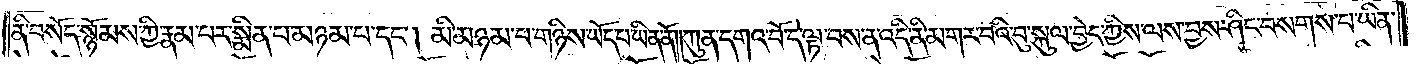ནི་བསོད་སྙོམས་ཀྱི་རྣམ་པར་སྨིན་པ་མཉམ་པ་དང༌། མི་མཉམ་པ་གཉིས་ཡོད་པ་ཡིན་ནོ། །ཀུན་དགའ་བོ་དེ་ལྟ་བས་ན་འདི་ནི་མགར་བའི་བུ་སྐུལ་བྱེད་ཀྱིས་ལས་བྱས་ཤིང་བསགས་པ་ཡིན་
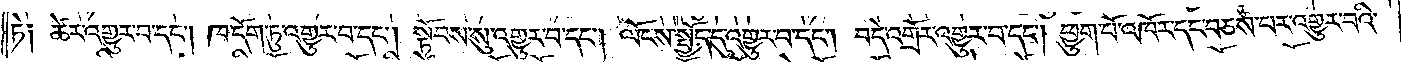ཏེ༑ ཚེར་འགྱུར་བ་དང༌། ཁ་དོག་ཏུ་འགྱུར་བ་དང༌། སྟོབས་སུ་འགྱུར་བ་དང༌། ལོངས་སྤྱོད་དུ་འགྱུར་བ་དང༌། བདེ་འགྲོར་འགྱུར་བ་དང༌། ཕྱུག་པོ་འཁོར་དང་བཅས་པར་འགྱུར་བའི་
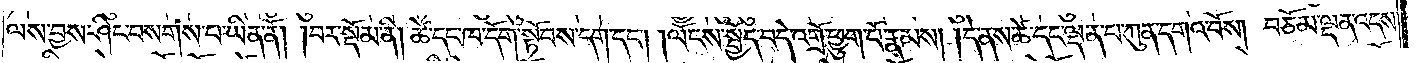ལས་བྱས་ཤིང་བསགས་པ་ཡིན་ནོ། །བར་སྡོམ་ནི། ཚེ་དང་ཁ་དོག་སྟོབས་དག་དང༌། །ལོངས་སྤྱོད་བདེ་འགྲོ་ཕྱུག་པོ་རྣམས། །དེ་ནས་ཚེ་དང་ལྡན་པ་ཀུན་དགའ་བོས། བཅོམ་ལྡན་འདས་
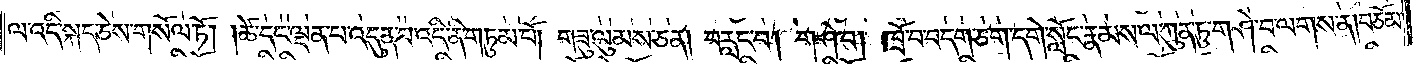ལ་འདི་སྐད་ཅེས་གསོལ་ཏོ། །ཚེ་དང་ལྡན་པ་འདུན་པ་འདི་ནི་གཏུམ་པོ། གཟུ་ལུམས་ཅན། བརླང་བ། གཤེ་བ། ཁྲོ་བ་བདག་ཅག་དགེ་སློང་རྣམས་ལ་ཀུན་ཏུ་གཤེ་བ་ལགས་ན། བཅོམ་
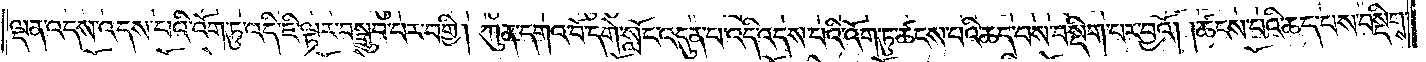ལྡན་འདས་འདས་པའི་འོག་ཏུ་འདི་ཇི་ལྟར་བསྒྲུབ་པར་བགྱི། ཀུན་དགའ་བོ་དགེ་སློང་འདུན་པ་འདི་འདས་པའི་འོག་ཏུ་ཚངས་པའི་ཆད་པས་བསྡིག་པར་བྱའོ། །ཚངས་པའི་ཆད་པས་བསྡིགས་
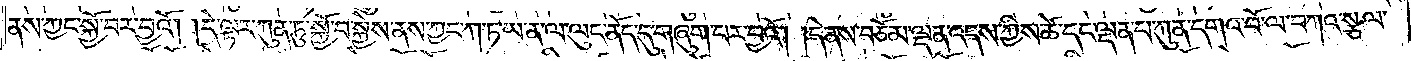ནས་ཀྱང་སྐྱོ་བར་བྱའོ། །དེ་ལྟར་ཀུན་ཏུ་སྐྱོ་བ་སྐྱེས་ནས་ཀྱང་ཀ་ཏ་ཡ་ན་ལ་ལུང་ནོད་དུ་གཞུག་པར་བྱའོ། །དེ་ནས་བཅོམ་ལྡན་འདས་ཀྱིས་ཚེ་དང་ལྡན་པ་ཀུན་དགའ་བོ་ལ་བཀའ་སྩལ་
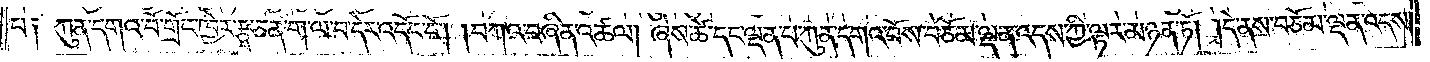པ༑ ཀུན་དགའ་བོ་གྲོང་ཁྱེར་རྩྭ་ཅན་ག་ལ་བ་དེར་འདོང་ངོ༌། །བཀའ་བཞིན་འཚལ། ཞེས་ཚེ་དང་ལྡན་པ་ཀུན་དགའ་བོས་བཅོམ་ལྡན་འདས་ཀྱི་ལྟར་མཉན་ཏོ། །དེ་ནས་བཅོམ་ལྡན་འདས་
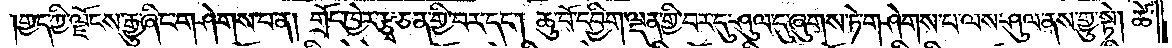གྱད་ཀྱི་ལྗོངས་རྒྱུ་ཞིང་གཤེགས་པ་ན། གྲོང་ཁྱེར་རྩྭ་ཅན་གྱི་བར་དང༌། ཆུ་བོ་དབྱིག་ལྡན་གྱི་བར་དུ་ཤུལ་དུ་ཞུགས་ཏེ་གཤེགས་པ་ལས་ཤུལ་ནས་གྱུ་སྟེ། ཚེ་
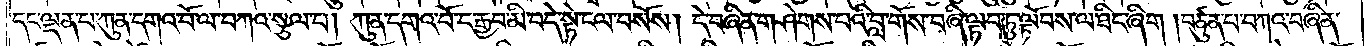དང་ལྡན་པ་ཀུན་དགའ་བོ་ལ་བཀའ་སྩལ་པ། ཀུན་དགའ་བོ་ང་རྒྱབ་མི་བདེ་སྟེ་ངལ་བསོས། དེ་བཞིན་གཤེགས་པའི་བླ་གོས་བཞི་ལྟབ་ཏུ་ལྟོབས་ལ་ཐིང་ཞིག །བཙུན་པ་བཀའ་བཞིན་
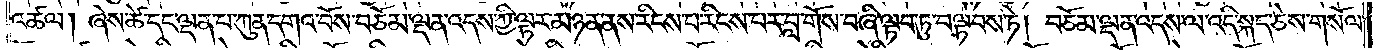འཚལ། ཞེས་ཚེ་དང་ལྡན་པ་ཀུན་དགའ་བོས་བཅོམ་ལྡན་འདས་ཀྱི་ལྟར་མཉན་ནས་རིངས་པ་རིངས་པར་བླ་གོས་བཞི་ལྟབ་ཏུ་བལྟབས་ཏེ། བཅོམ་ལྡན་འདས་ལ་འདི་སྐད་ཅེས་གསོལ་
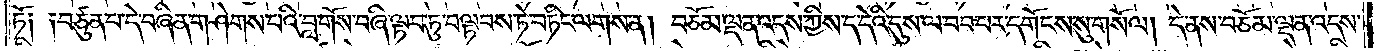ཏོ༑ ༑བཙུན་པ་དེ་བཞིན་གཤེགས་པའི་བླ་གོས་བཞི་ལྟབ་ཏུ་བལྟབས་ཏེ་བཏིང་ལགས་ན། བཅོམ་ལྡན་འདས་ཀྱིས་ད་དེའི་དུས་ལ་བབ་པར་དགོངས་སུ་གསོལ། དེ་ནས་བཅོམ་ལྡན་འདས་
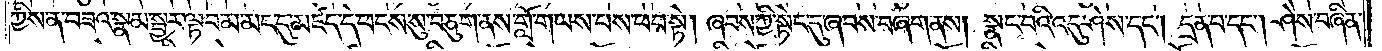ཀྱིས་ན་བཟའ་སྣམ་སྦྱར་ལྟབ་མ་མང་དུ་མཛད་དེ་ཕངས་སུ་བཅུག་ནས་གློ་གཡས་པས་ཕབ་སྟེ། ཞབས་ཀྱི་སྟེང་དུ་ཞབས་བཞག་ནས། སྣང་བའི་འདུ་ཤེས་དང༌། དྲན་པ་དང༌། ཤེས་བཞིན་
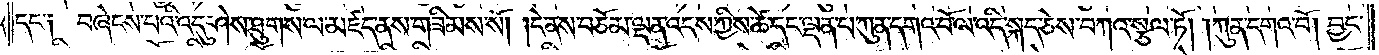དང་༑ བཞེངས་པའི་འདུ་ཤེས་ཐུགས་ལ་མཛད་ནས་གཟིམས་སོ། །དེ་ནས་བཅོམ་ལྡན་འདས་ཀྱིས་ཚེ་དང་ལྡན་པ་ཀུན་དགའ་པོ་ལ་འདི་སྐད་ཅེས་བཀའ་སྩལ་ཏོ། །ཀུན་དགའ་བོ། བྱང་
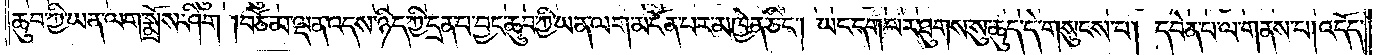ཆུབ་ཀྱི་ཡན་ལག་སྨྲོས་ཤིག །བཅོམ་ལྡན་འདས་ཉིད་ཀྱི་དྲན་པ་བྱང་ཆུབ་ཀྱི་ཡན་ལག་མངོན་པར་མཁྱེན་ཅིང༌། ཡང་དག་པར་ཐུགས་སུ་ཆུད་དེ་གསུངས་པ། དབེན་པ་ལ་གནས་པ། འདོད་
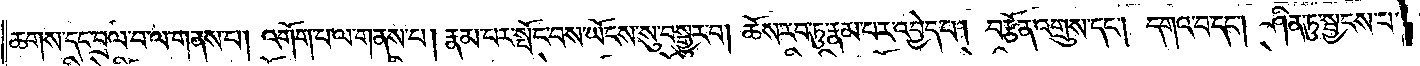ཆགས་དང་བྲལ་བ་ལ་གནས་པ། འགོག་པ་ལ་གནས་པ། རྣམ་པར་སྤོང་བས་ཡོངས་སུ་བསྒྱུར་བ། ཆོས་རབ་ཏུ་རྣམ་པར་འབྱེད་པ། བརྩོན་འགྲུས་དང༌། དགའ་བ་དང༌། ཤིན་ཏུ་སྦྱངས་པ་
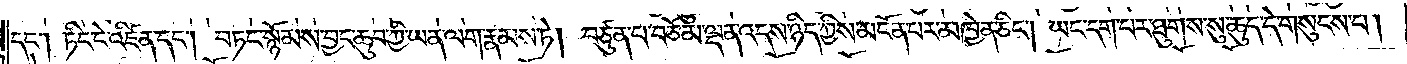དང༌། ཏིང་ངེ་འཛིན་དང༌། བཏང་སྙོམས་བྱང་ཆུབ་ཀྱི་ཡན་ལག་རྣམས་ཏེ། བཙུན་པ་བཅོམ་ལྡན་འདས་ཉིད་ཀྱིས་མངོན་པར་མཁྱེན་ཅིང༌། ཡང་དག་པར་ཐུགས་སུ་ཆུད་དེ་གསུངས་པ།
